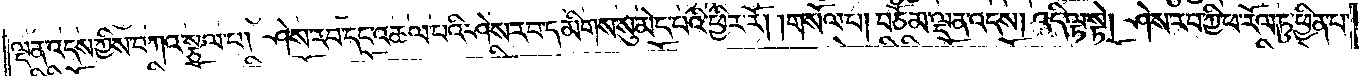ལྡན་འདས་ཀྱིས་བཀའ་སྩལ་པ། ཤེས་རབ་དང་འཆལ་པའི་ཤེས་རབ་དམིགས་སུ་མེད་པའི་ཕྱིར་རོ། །གསོལ་པ། བཅོམ་ལྡན་འདས། འདི་ལྟ་སྟེ། ཤེས་རབ་ཀྱི་ཕ་རོལ་ཏུ་ཕྱིན་པ་
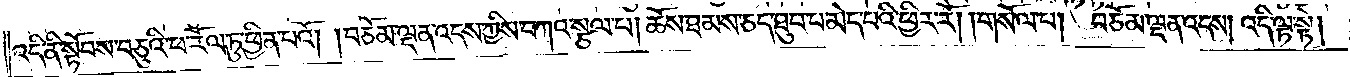འདི་ནི་སྟོབས་བཅུའི་ཕ་རོལ་ཏུ་ཕྱིན་པའོ། །བཅོམ་ལྡན་འདས་ཀྱིས་བཀའ་སྩལ་པ། ཆོས་ཐམས་ཅད་ཐུབ་པ་མེད་པའི་ཕྱིར་རོ། །གསོལ་པ། བཅོམ་ལྡན་འདས། འདི་ལྟ་སྟེ།
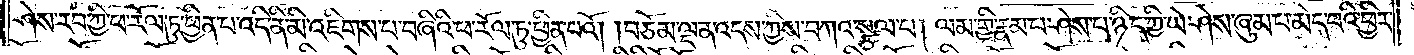ཤེས་རབ་ཀྱི་ཕ་རོལ་ཏུ་ཕྱིན་པ་འདི་ནི་མི་འཇིགས་པ་བཞིའི་ཕ་རོལ་ཏུ་ཕྱིན་པའོ། །བཅོམ་ལྡན་འདས་ཀྱིས་བཀའ་སྩལ་པ། ལམ་གྱི་རྣམ་པ་ཤེས་པ་ཉིད་ཀྱི་ཡེ་ཤེས་ཞུམ་པ་མེད་པའི་ཕྱིར་
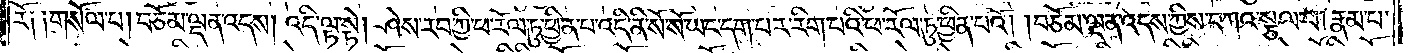རོ༑ ༑གསོལ་པ། བཅོམ་ལྡན་འདས། འདི་ལྟ་སྟེ། ཤེས་རབ་ཀྱི་ཕ་རོལ་ཏུ་ཕྱིན་པ་འདི་ནི་སོ་སོ་ཡང་དག་པར་རིག་པའི་ཕ་རོལ་ཏུ་ཕྱིན་པའོ། །བཅོམ་ལྡན་འདས་ཀྱིས་བཀའ་སྩལ་པ། རྣམ་པ་
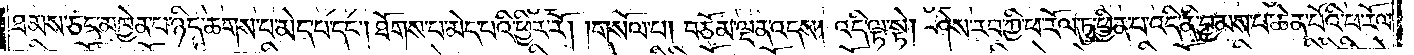ཐམས་ཅད་མཁྱེན་པ་ཉིད་ཆགས་པ་མེད་པ་དང༌། ཐོགས་པ་མེད་པའི་ཕྱིར་རོ། །གསོལ་པ། བཅོམ་ལྡན་འདས། འདི་ལྟ་སྟེ། ཤེས་རབ་ཀྱི་ཕ་རོལ་ཏུ་ཕྱིན་པ་འདི་ནི་བྱམས་པ་ཆེན་པོའི་ཕ་རོལ་
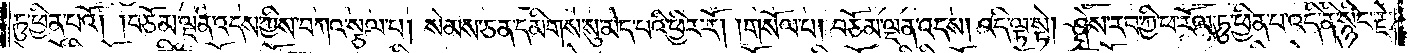ཏུ་ཕྱིན་པའོ། །བཅོམ་ལྡན་འདས་ཀྱིས་བཀའ་སྩལ་པ། སེམས་ཅན་དམིགས་སུ་མེད་པའི་ཕྱིར་རོ། །གསོལ་པ། བཅོམ་ལྡན་འདས། འདི་ལྟ་སྟེ། ཤེས་རབ་ཀྱི་ཕ་རོལ་ཏུ་ཕྱིན་པ་འདི་ནི་སྙིང་རྗེ་
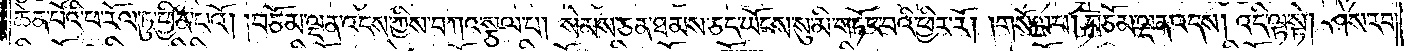ཆེན་པོའི་ཕ་རོལ་ཏུ་ཕྱིན་པའོ། །བཅོམ་ལྡན་འདས་ཀྱིས་བཀའ་སྩལ་པ། སེམས་ཅན་ཐམས་ཅད་ཡོངས་སུ་མི་གཏོང་བའི་ཕྱིར་རོ། །གསོལ་པ། བཅོམ་ལྡན་འདས། འདི་ལྟ་སྟེ། ཤེས་རབ་
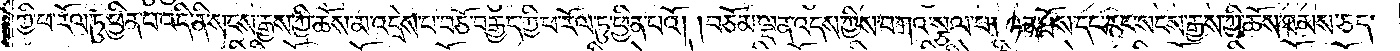ཀྱི་ཕ་རོལ་ཏུ་ཕྱིན་པ་འདི་ནི་སངས་རྒྱས་ཀྱི་ཆོས་མ་འདྲེས་པ་བཅོ་བརྒྱད་ཀྱི་ཕ་རོལ་ཏུ་ཕྱིན་པའོ། །བཅོམ་ལྡན་འདས་ཀྱིས་བཀའ་སྩལ་པ། ཉན་ཐོས་དང་རང་སངས་རྒྱས་ཀྱི་ཆོས་ཐམས་ཅད་
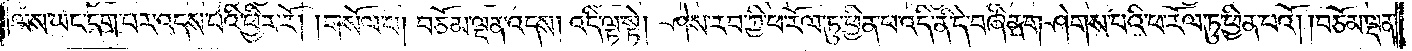ལས་ཡང་དག་པར་འདས་པའི་ཕྱིར་རོ། །གསོལ་པ། བཅོམ་ལྡན་འདས། འདི་ལྟ་སྟེ། ཤེས་རབ་ཀྱི་ཕ་རོལ་ཏུ་ཕྱིན་པ་འདི་ནི་དེ་བཞིན་གཤེགས་པའི་ཕ་རོལ་ཏུ་ཕྱིན་པའོ། །བཅོམ་ལྡན་
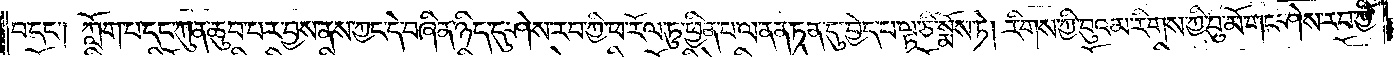བ་དང༌། ཀློག་པ་དང་ཀུན་ཆུབ་པར་བྱས་ནས་ཀྱང་དེ་བཞིན་ཉིད་དུ་ཤེས་རབ་ཀྱི་ཕ་རོལ་ཏུ་ཕྱིན་པ་ལ་ནན་ཏན་དུ་བྱེད་པ་ལྟ་ཅི་སྨོས་ཏེ། རིགས་ཀྱི་བུའམ་རིགས་ཀྱི་བུ་མོ་གང་ཤེས་རབ་ཀྱི་
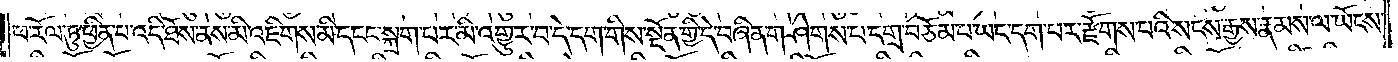ཕ་རོལ་ཏུ་ཕྱིན་པ་འདི་ཐོས་ནས་མི་འཇིགས་མི་དངང་སྐྲག་པར་མི་འགྱུར་བ་དེ་དག་གིས་སྔོན་གྱི་དེ་བཞིན་གཤེགས་པ་དགྲ་བཅོམ་པ་ཡང་དག་པར་རྫོགས་པའི་སངས་རྒྱས་རྣམས་ལ་ཡོངས་
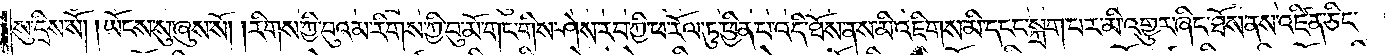སུ་དྲིས་སོ། །ཡོངས་སུ་ཞུས་སོ། །རིགས་ཀྱི་བུའམ་རིགས་ཀྱི་བུ་མོ་གང་གིས་ཤེས་རབ་ཀྱི་ཕ་རོལ་ཏུ་ཕྱིན་པ་འདི་ཐོས་ནས་མི་འཇིགས་མི་དངང་སྐྲག་པར་མི་འགྱུར་ཞིང་ཐོས་ནས་འཛིན་ཅིང་
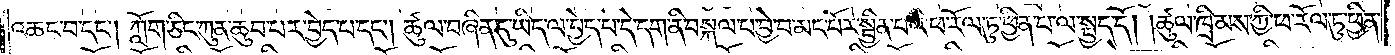འཆང་བ་དང༌། ཀློག་ཅིང་ཀུན་ཆུབ་པར་བྱེད་པ་དང༌། ཚུལ་བཞིན་དུ་ཡིད་ལ་བྱེད་པ་དེ་དག་ནི་བསྐལ་པ་བྱེ་བ་མང་པོར་སྦྱིན་པའི་ཕ་རོལ་ཏུ་ཕྱིན་པ་ལ་སྤྱད་དོ། །ཚུལ་ཁྲིམས་ཀྱི་ཕ་རོལ་ཏུ་ཕྱིན་
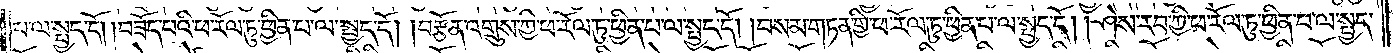པ་ལ་སྤྱད་དོ། །བཟོད་པའི་ཕ་རོལ་ཏུ་ཕྱིན་པ་ལ་སྤྱད་དོ། །བརྩོན་འགྲུས་ཀྱི་ཕ་རོལ་ཏུ་ཕྱིན་པ་ལ་སྤྱད་དོ། །བསམ་གཏན་གྱི་ཕ་རོལ་ཏུ་ཕྱིན་པ་ལ་སྤྱད་དོ། །ཤེས་རབ་ཀྱི་ཕ་རོལ་ཏུ་ཕྱིན་པ་ལ་སྤྱད་
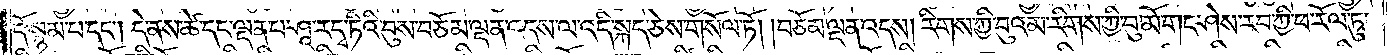དོ་སྙམ་པ་དང༌། དེ་ནས་ཚེ་དང་ལྡན་པ་ཤཱ་རདྭ་ཏིའི་བུས་བཅོམ་ལྡན་འདས་ལ་འདི་སྐད་ཅེས་གསོལ་ཏོ། །བཅོམ་ལྡན་འདས། རིགས་ཀྱི་བུའམ་རིགས་ཀྱི་བུ་མོ་གང་ཤེས་རབ་ཀྱི་ཕ་རོལ་ཏུ་
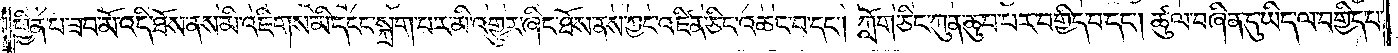ཕྱིན་པ་ཟབ་མོ་འདི་ཐོས་ནས་མི་འཇིགས་མི་དངང་སྐྲག་པར་མི་འགྱུར་ཞིང་ཐོས་ནས་ཀྱང་འཛིན་ཅིང་འཆང་བ་དང༌། ཀློག་ཅིང་ཀུན་ཆུབ་པར་བགྱིད་པ་དང༌། ཚུལ་བཞིན་དུ་ཡིད་ལ་བགྱིད་པ་
